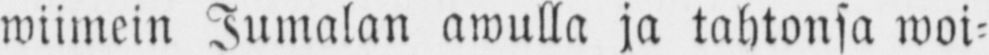wiimein Jumalan awulla ja tahtonsa woi-
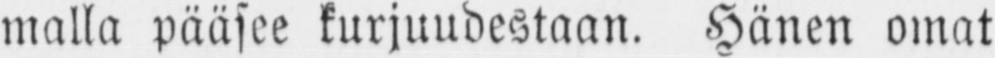malla pääsee kurjuudestaan. Hänen omat
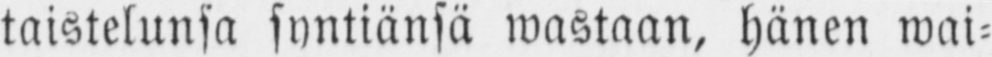taistelunsa syntiänsä wastaan, hänen wai-
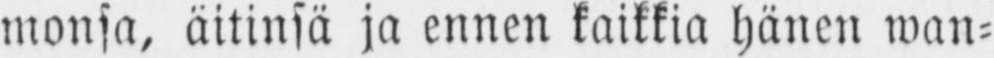monsa, äitinsä ja ennen kaikkia hänen wan-
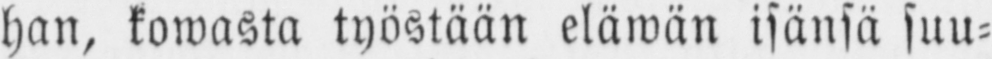han, kowasta työstään eläwän isänsä suu-
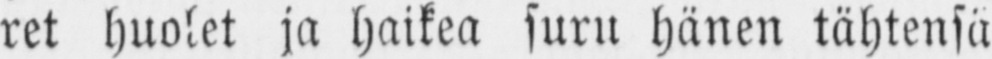ret huolet ja haikea suru hänen tähtensä
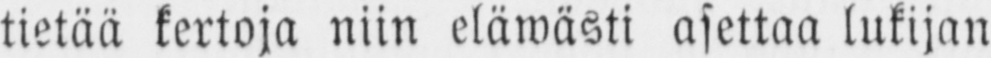tietää kertoja niin eläwästi asettaa lukijan
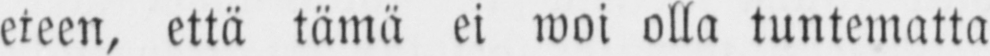eteen, että tämä ei woi olla tuntematta
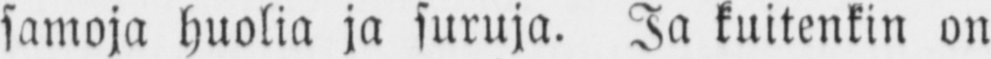samoja huolia ja suruja. Ja kuitenkin on
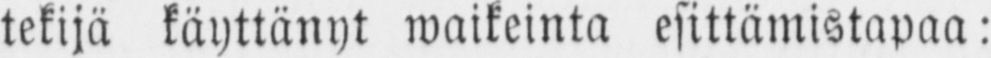tekijä käyttänyt waikeinta esittämistapaa:
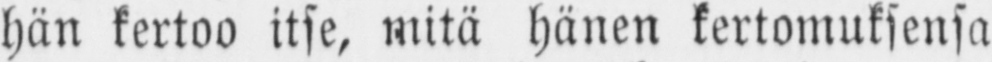hän kertoo itse, mitä hänen kertomuksensa
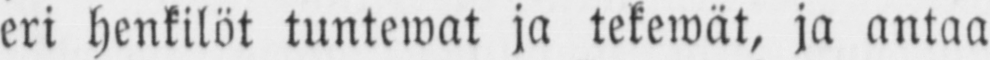eri henkilöt tuntewat ja tekewät, ja antaa
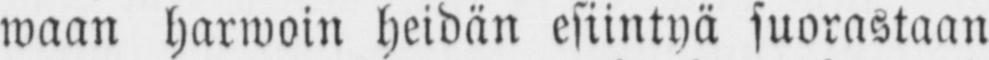waan harwoin heidän esiintyä suorastaan
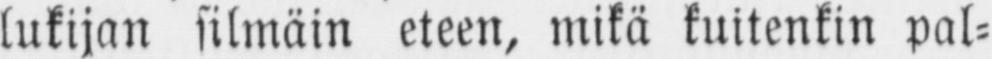lukijan silmäin eteen, mikä kuitenkin pal-
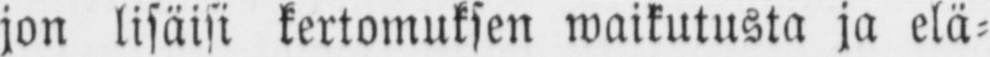jon lisäisi kertomuksen waikutusta ja elä-
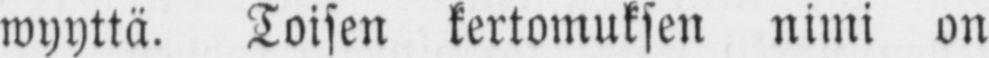wyyttä. Toisen kertomuksen nimi on
